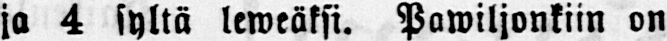ja 4 syltä leweäksi. Pawiljonkiin on
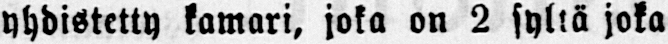yhdistetty kamari, joka on 2 syliä joka
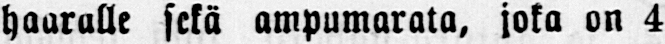haaralle sekä ampumarata, joka on 4
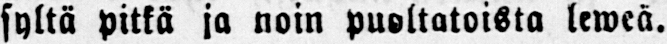syltä pitkä ja noin puoltatoista leweä.
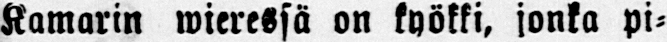Kamarin wieressä on kyökki, jonka pi-
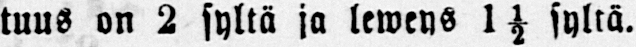tuus on 2 syltä ja leweys 1½ syltä.
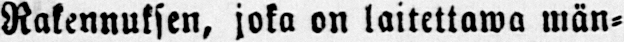Rakennuksen, joka on laitettawa män-
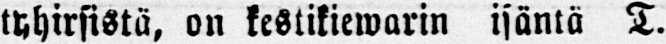tyhirsistä, on kestikiewarin isäntä T.
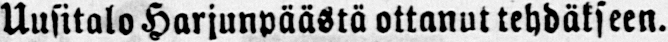Uusitalo Harjunpäästä ottanut tehdäkseen.
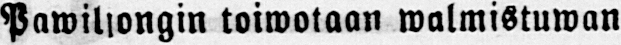Pawiljongin toiwotaan walmistuwan
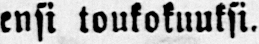ensi toukokuuksi.
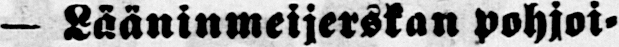— Lääninmeijerskan pohjoi-
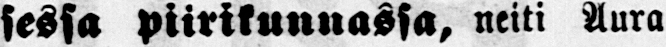sessa piirikunnassa, neiti Aura
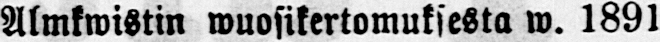Almkwistin wuosikertomuksesta w. 1891
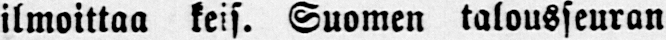ilmoittaa keis. Suomen talousseuran
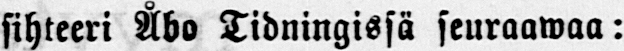sihteeri Åbo Tidningissä seuraawaa:
